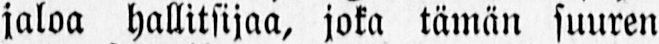jaloa hallitsijaa, joka tämän suuren
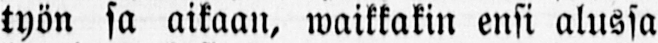työn sa aikaan, waikkakin ensi alussa
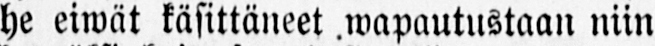he eiwät käsittäneet wapautustaan niin
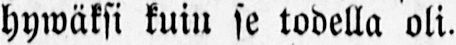hywäksi kuin se todella oli.
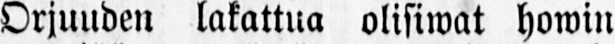Orjuuden lakattua olisiwat howin
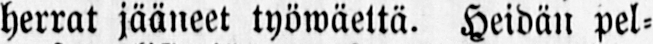herrat jääneet työwäettä. Heidän pel-
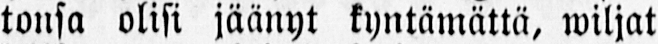tonsa olisi jäänyt kyntämättä, wiljat
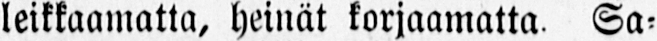leikkaamatta, heinät korjaamatta Sa-
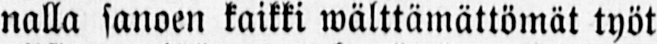nalla sanoen kaikki wälttämättömät työt
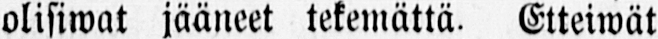olisiwat jääneet tekemättä. Etteiwät
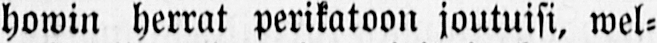howin herrat perikatoon joutuisi, wel-
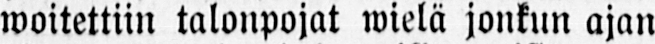woitettiin talonpojat wielä jonkun ajan
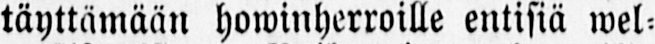täyttämään howinherroille entisiä wel-
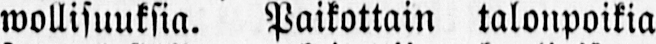wollisuuksia. Paikottain talonpoikia
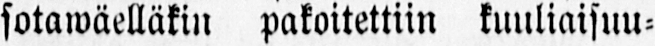sotawäelläkin pakotettiin kuuliaisuu-
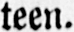teen.
